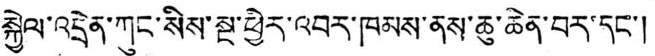སྐྱེལ་འདྲེན་ཀུང་སིས་སྔ་ཕྱིར་འབར་ཁམས་ནས་ཆུ་ཆེན་བར་དང་།
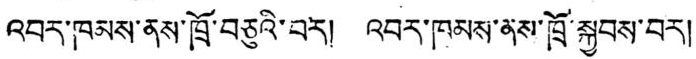འབྲ་ཁམས་ནས་ཁྲོ་བཅུའི་བར། འབར་ཁམས་ནས་ཁྲོ་སྐྱབས་བར།
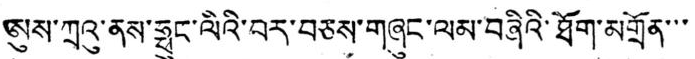ཨུས་ཀྲའུ་ནས་ཧྥུང་ལིའི་བར་བཅས་གཞུང་ལམ་བཞིའི་ཐོག་མགྲོན་་་
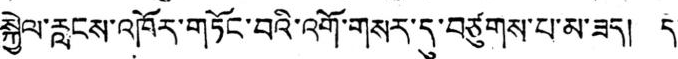སྐྱེལ་རླངས་འཁོར་གཏོང་བའི་འགོ་གསར་དུ་བཙུགས་པ་མ་ཟད། ད་
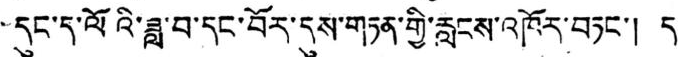དུང་ད་ལོའི་ཟླ་བ་དང་བོར་དུས་གཏན་གྱི་རླངས་འཁོར་བཏང་། ད་
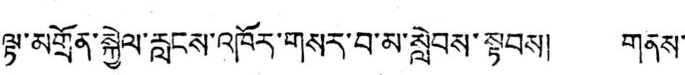ལྟ་མགྲོན་སྐྱེལ་རླངས་འཁོར་གསར་བ་མ་སླེབས་སྟབས། གནས་
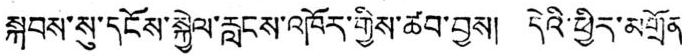སྐབས་སུ་དངོས་སྐྱེལ་རླངས་འཁོར་གྱིས་ཚབ་བྱས། དེའི་ཕྱིར་མགྲོན་
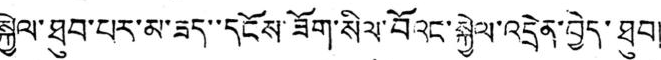སྐྱེལ་ཐུབ་པར་མ་ཟད་་དངོས་ཟོག་སིལ་བོའང་སྐྱེལ་འདྲེན་བྱེད་ཐུབ།
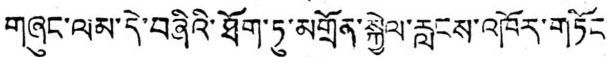གཞུང་ལམ་དེ་བཞིའི་ཐོག་ཏུ་མགྲོན་སྐྱེལ་རླངས་འཁོར་གཏོང་
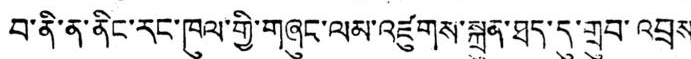བ་ནི་ན་ནིང་རང་ཁུལ་གྱི་གཞུང་ལམ་འཛུགས་སྐྲུན་ཐད་དུ་གྲུབ་འབྲས
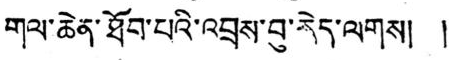གལ་ཆེན་ཐོབ་པའི་འབྲས་བུ་རེད་ལགས། །
